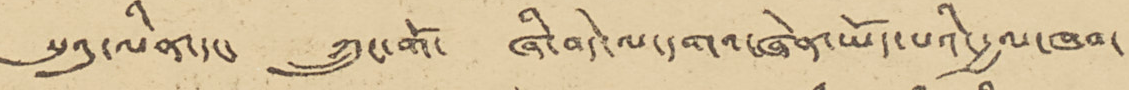སུའུ་ལིན་དང་ ཀྲུང་གོ་ ཞི་བདེ་ལ་དགའ་ཞེན་ཡོད་པའི་རྒྱལ་ཁབ་
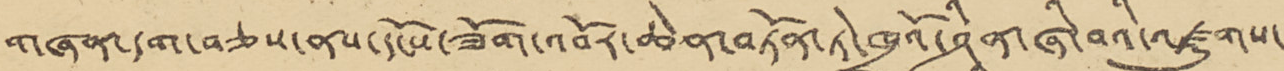གཞན་དག་བཅས་ནས་དངོས་ཟོག་འབོར་ཆེན་བཏོན་ཏེ་ཁྲའོ་ཤཱིན་ཞི་བའི་འཛུགས་
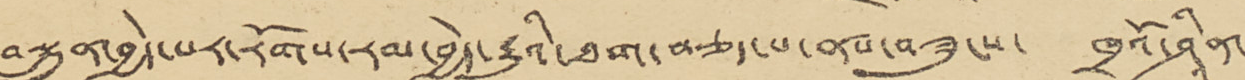བསྐྲུན་བྱེད་པར་རོགས་རམ་བྱེད་རྒྱུའི་ཐག་བཅད་པ་ནས་བཟུངས་ ཁྲའོ་ཤཱིན་
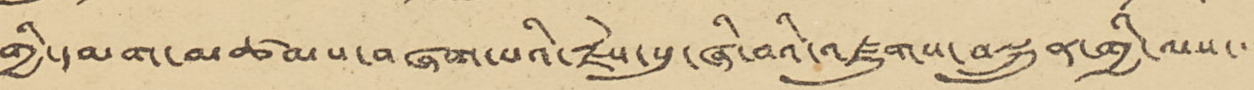གྱི་དམག་མཚམས་བཞག་པའི་རྗེས་སུ་ཞི་བའི་འཛུགས་བསྐྲུན་གྱི་ལས་་་
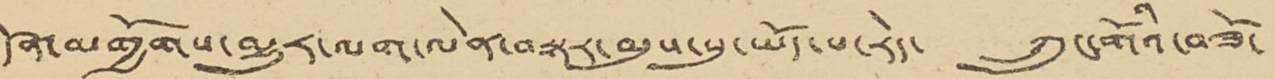དོན་མགྱོགས་མྱུར་ལག་ལེན་བསྟར་མུས་སུ་ཡོད་པ་རེད་ ཀྲུང་གོའི་བཟོ་
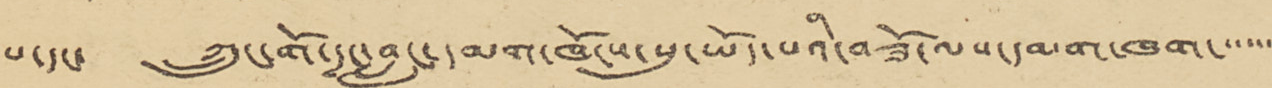པ་དང་ ཀྲུང་གོ་དྭང་བླང་དམག་ཁོངས་སུ་ཡོད་པའི་བཟོ་ལས་དམག་ཁག་་་་་་
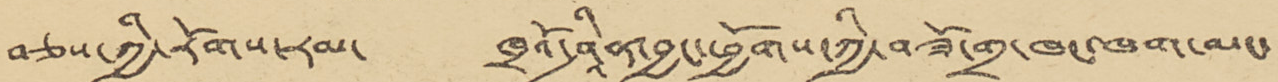བཅས་ཀྱི་རོགས་རམ་ ཁྲའོ་ཤཱིན་བྱང་ཕྱོགས་ཀྱི་བཟོ་གྲ་ཁང་ཁག་མང་
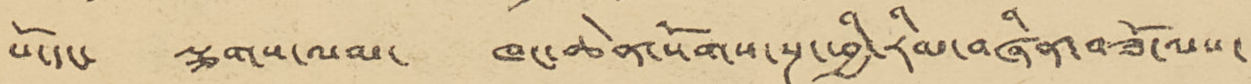པོ་དང་ ལྕགས་ལམ་ ཁང་ཆེན་སོགས་སྔ་ཕྱི་རིམ་བཞིན་བཟོ་ལས་
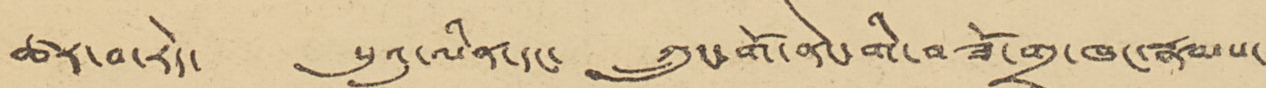ཚར་བ་རེད་ སུའུ་ལིན་དང་ ཀྲུང་གོ་ནང་གི་བཟོ་གྲྭ་ཁང་རྣམས་
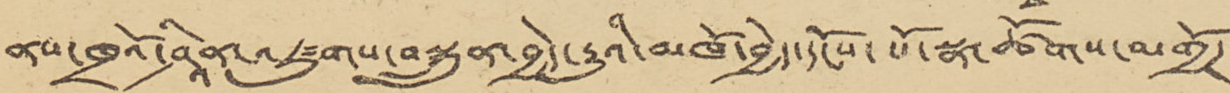ནས་ཁྲའོ་ཤཱིན་འཛུགས་བསྐྲུན་བྱེད་རྒྱུའི་མཁོ་བྱེད་དངོས་པོ་སྣ་ཚོགས་མགྱོཊ་
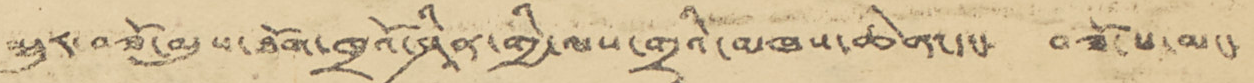མྱུར་བཟོ་མུས་ཐོག་ཁྲའོ་ཤཱིན་གྱི་ལས་གྲྭའི་མཁས་ཆེན་དང་ བཟོ་པ་མང་
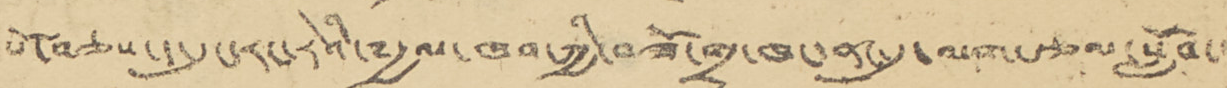པོ་བཅས་ད་དུང་རང་རེའི་༸རྒྱལ་ཁབ་ཀྱི་བཟོ་གྲྭ་ཁང་ནང་དུ་ལག་རྩལ་སློབ་
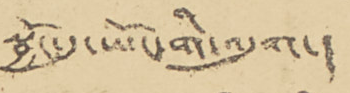སྦྱོང་དུ་ཡོང་གི་འདུག་།
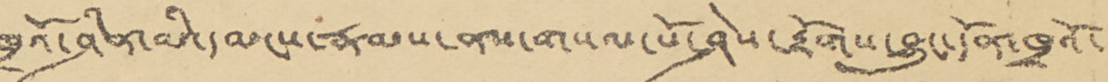ཁྲའོ་ཤཱིན་མི་དམངས་རྣམས་ནས་གསལ་པོ་ཤེས་རྟོགས་བྱུང་དོན་ཁྲའོ་
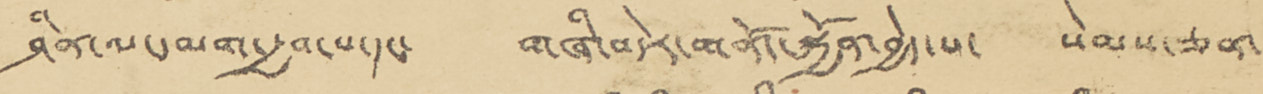ཤིན་ལ་དམག་རྒྱབ་པ་དང་ གཞི་བདེར་གནོད་སྐྱོན་བྱེད་པ་ སེམས་ཅན་
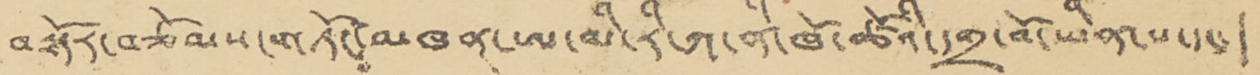བསྟོར་བཅོམས་གཏོང་མཁན་ལ་ཨ་མི་རི་ཀ་ནི་ཁོ་ཚོའི་དགྲ་བོ་ཡིན་པ་དང་།
